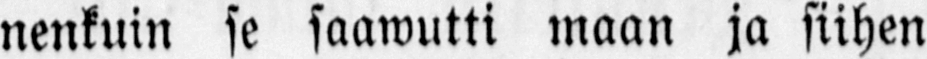nenkuin se saawutti maan ja siihen
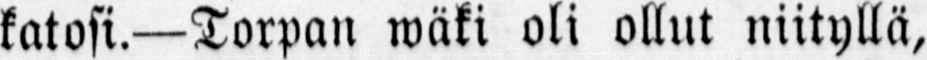katosi. — Torpan wäki oli ollut niityllä,
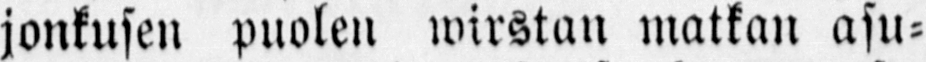jonkusen puolen wirstan matkan asu-
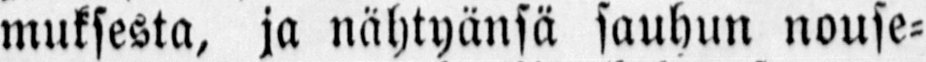muksesta, ja nähtyänsä sauhun nouse-
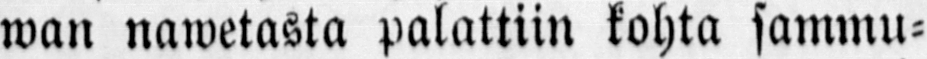wan nawetasta palattiin kohta sammu-
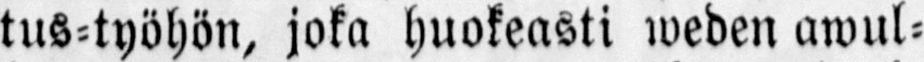tus-työhön, joka huokeasti weden awul-
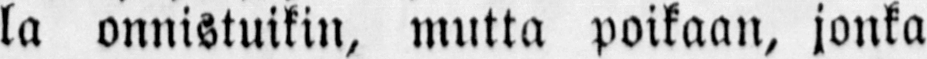la onnistuikin, mutta poikaan, jonka
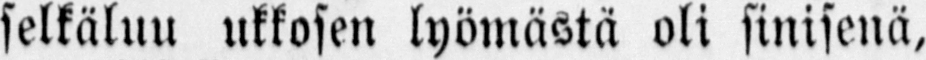selkäluu ukkosen lyömästä oli sinisenä,
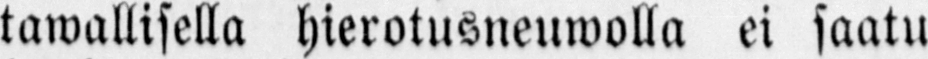tawallisella hierotusneuwolla ei saatu
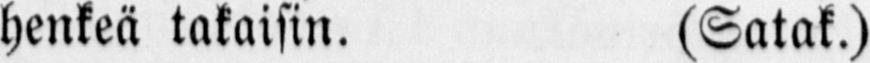henkeä takaisin. (Satak.)
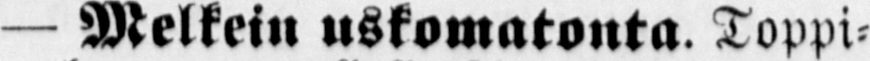— Melkein uskomatonta Toppi-
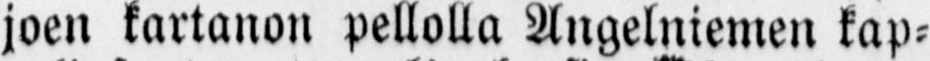joen kartanon pellolla Angelniemen kap-
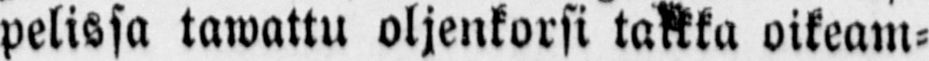pelissa tawattu oljenkorsi taikka oikeam-
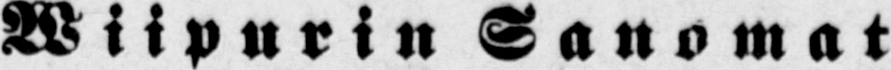Wiipurin Sanomat
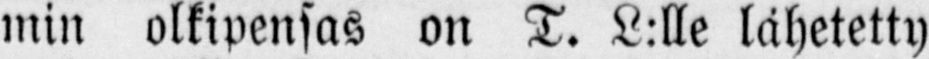min olkipensas on T. L:lle lähetetty
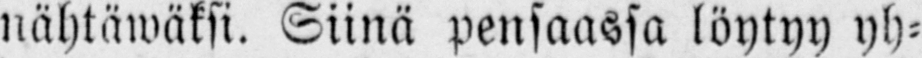nähtäwäksi. Siinä pensaassa löytyy yh-
